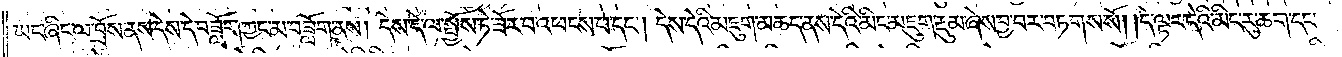ཡང་ཞིང་ལ་བྲོས་ནས་དེས་དེ་བཟློག་ཀྱང་མ་བཟློག་ནས། དེས་དེ་ལ་སྤྱོས་ཏེ་ཟོར་བ་འཕངས་པ་དང༌། དེས་དེའི་མཇུག་མཆད་ནས་དེའི་མིང་མཇུག་རྡུམ་ཞེས་བྱ་བར་བཏགས་སོ། །དེ་ལྟར་དེའི་མིང་རུ་ཆག་དང་
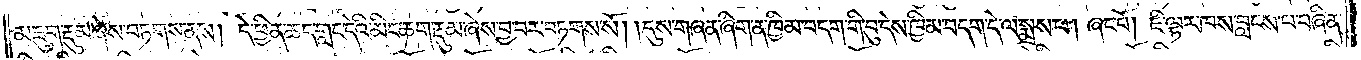མཇུག་རྡུམ་ཞེས་བཏགས་ནས། དེ་ཕྱིན་ཆད་གླང་དེའི་མིང་ཆག་རྡུམ་ཞེས་བྱ་བར་བཏགས་སོ། །དུས་གཞན་ཞིག་ན་ཁྱིམ་བདག་གི་བུ་དེས་ཁྱིམ་བདག་དེ་ལ་སྨྲས་པ། ཞང་པོ། ཇི་ལྟར་ཁས་བླངས་པ་བཞིན་
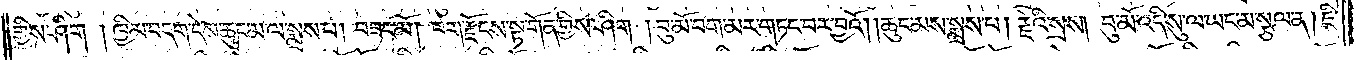གྱིས་ཤིག །ཁྱིམ་བདག་དེས་ཆུང་མ་ལ་སྨྲས་པ། བཟང་མོ། བག་རྫོངས་སྟ་གོན་གྱིས་ཤིག །བུ་མོ་བག་མར་གཏང་བར་བྱའོ། །ཆུང་མས་སྨྲས་པ། རྗེའི་སྲས། བུ་མོ་འདི་སུ་ལ་ཡང་མ་སྩལ་ན། ཇི་
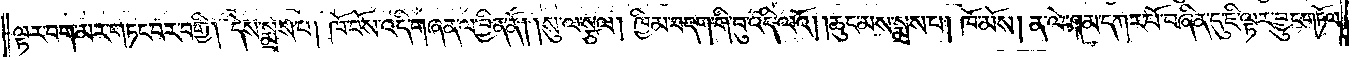ལྟར་བག་མར་གཏང་བར་བགྱི། དེས་སྨྲས་པ། ཁོ་བོས་འདི་གཞན་ལ་བྱིན་ནོ། །སུ་ལ་སྩལ། ཁྱིམ་བདག་གི་བུ་འདི་ལའོ། །ཆུང་མས་སྨྲས་པ། ཁོ་མོས། ན་ལེ་ཤམ་དཀར་པོ་བཞིན་དུ་ཇི་ལྟར་བྱུང་གཏོལ་
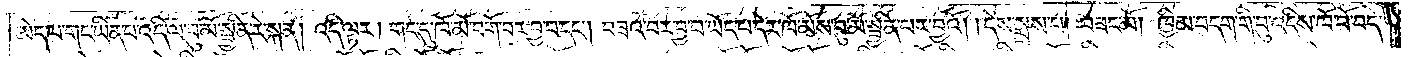མེད་པ་གང་ཡིན་པ་འདི་ལ་བུ་མོ་སྦྱིན་རེ་སྐན། འདི་ལྟར། གང་དུ་ཁོ་མོ་བགོ་བར་བྱ་བ་དང༌། བཟའ་བར་བྱ་བ་ཡོད་པ་དེར་ཁོ་མོས་བུ་མོ་སྦྱིན་པར་བྱའོ། །དེས་སྨྲས་པ། བཟང་མོ། ཁྱིམ་བདག་གི་བུ་འདིས་ཁོ་བོ་བདེ་
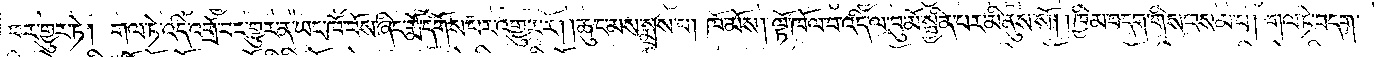བར་གྱུར་ཏེ། གལ་ཏེ་འདི་འགྲོ་བར་གྱུར་ན་ཡང་ཁོ་བོས་ཞིང་རྨོ་དགོས་པར་འགྱུར་རོ། །ཆུང་མས་སྨྲས་པ། ཁོ་མོས། ལྟོ་ཁོལ་བ་འདི་ལ་བུ་མོ་སྦྱིན་པར་མི་ནུས་སོ། །ཁྱིམ་བདག་གིས་བསམ་པ། གལ་ཏེ་བདག་
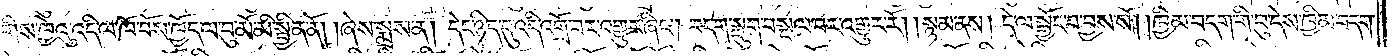གིས་ཁྱེའུ་འདི་ལ་ཁོ་བོས་ཁྱོད་ལ་བུ་མོ་མི་སྦྱིན་ནོ། །ཞེས་སྨྲས་ན། དེང་ཉིད་དུ་འདི་འགྲོ་བར་འགྱུར་ཞིང༌། བདག་སྡུག་བསྔལ་བར་འགྱུར་རོ། །སྙམ་ནས། དེ་ལ་སྒྱོང་བ་བྱས་སོ། །ཁྱིམ་བདག་གི་བུ་དེས་ཁྱིམ་བདག་
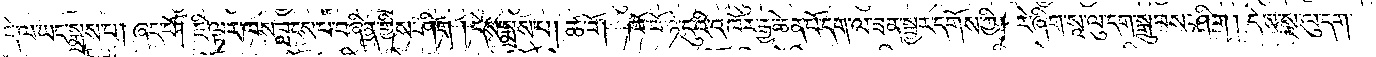དེ་ལ་ཡང་སྨྲས་པ། ཞང་པོ། ཇི་ལྟར་ཁས་བླངས་པ་བཞིན་གྱིས་ཤིག །དེས་སྨྲས་པ། ཚ་བོ། ཁོ་བོ་ཉེ་དུའི་འཁོར་རྒྱ་ཆེན་པོ་དག་ལ་ཟན་སྦྱར་དགོས་ཀྱི། རེ་ཞིག་སཱ་ལུ་དག་སྒྲུབས་ཤིག། དེས་སཱ་ལུ་དག་
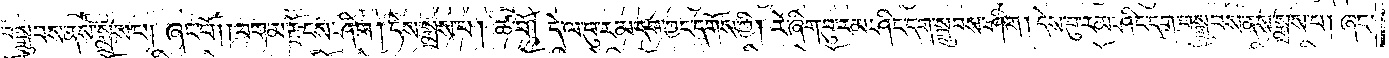བསྒྲུབས་ནས་སྨྲས་པ། ཞང་པོ། །བག་མ་རྫོངས་ཤིག། དེས་སྨྲས་པ། ཚ་བོ། དེ་ལ་བུ་རམ་དག་ཀྱང་དགོས་ཀྱི། རེ་ཞིག་བུ་རམ་ཤིང་དག་སྒྲུབས་ཤིག། དེས་བུ་རམ་ཤིང་དག་བསྒྲུབས་ནས་སྨྲས་པ། ཞང་
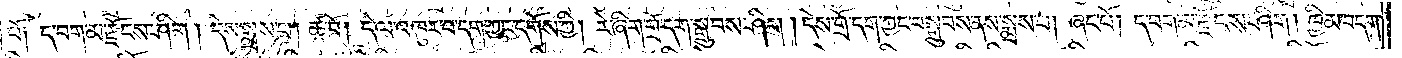པོ༑ ད་བག་མ་རྫོངས་ཤིག། དེས་སྨྲས་པ། ཚ་བོ། དེ་ལ་འཁུར་བ་དག་ཀྱང་དགོས་ཀྱི། རེ་ཞིག་གྲོ་དག་སྒྲུབས་ཤིག། དེས་གྲོ་དག་ཀྱང་བསྒྲུབས་ནས་སྨྲས་པ། ཞང་པོ། ད་བག་མ་རྫོངས་ཤིག །ཁྱིམ་བདག་
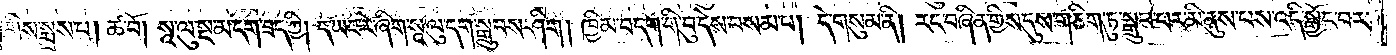གིས་སྨྲས་པ། ཚ་བོ། སཱ་ལུ་སྔ་མ་དག་ཟད་ཀྱི། ད་ཡང་རེ་ཞིག་སཱ་ལུ་དག་སྒྲུབས་ཤིག །ཁྱིམ་བདག་གི་བུ་དེས་བསམ་པ། དེ་གསུམ་ནི། རང་བཞིན་གྱིས་དུས་གཅིག་ཏུ་སྒྲུབ་པར་མི་ནུས་པས་འདི་སྒྱོང་བར་
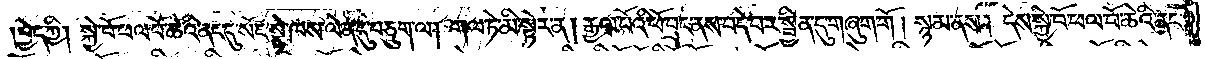བྱེད་ཀྱི། སྐྱེ་བོ་ཕལ་པོ་ཆེའི་ནང་དུ་སོང་སྟེ་ཁས་ལེན་དུ་བཅུག་ལ། གལ་ཏེ་མི་སྟེར་ན། རྒྱལ་པོའི་ཕོ་བྲང་ནས་བདེ་བར་སྦྱིན་དུ་གཞུག་གོ། སྙམ་ནས། དེས་སྐྱེ་བོ་ཕལ་པོ་ཆེའི་ནང་
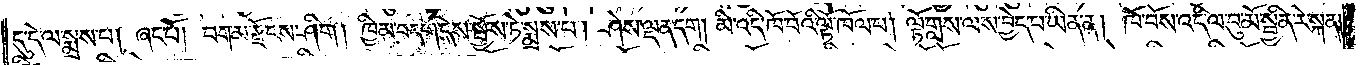དུ་དེ་ལ་སྨྲས་པ། ཞང་པོ། བག་མ་རྫོངས་ཤིག། ཁྱིམ་བདག་དེས་སྤྱོས་ཏེ་སྨྲས་པ། ཤེས་ལྡན་དག། མི་འདི་ཁོ་བོའི་ལྟོ་ཁོལ་པ། ལྟོ་གླས་ལས་བྱེད་པ་ཡིན་ན། ཁོ་བོས་འདི་ལ་བུ་མོ་སྦྱིན་རེ་སྐན།
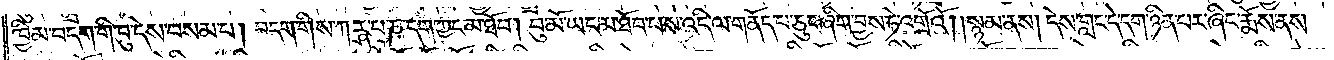ཁྱིམ་བདག་གི་བུ་དེས་བསམ་པ། བདག་གིས་ཀརྴ་པ་ཎ་དག་ཀྱང་མ་ཐོབ། བུ་མོ་ཡང་མ་ཐོབ་པས་འདི་ལ་གནོད་པ་ཅུང་ཞིག་བྱས་ཏེ་འགྲོའོ། །སྙམ་ནས། དེས་གླང་དེ་དག་ཉིན་པར་ཞིང་རྨོས་ནས་
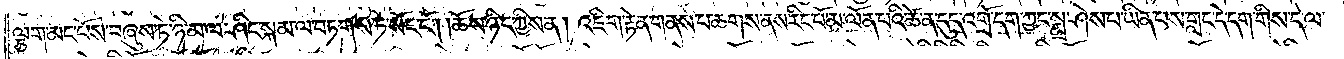ལྕག་མང་པོས་བཞུས་ཏེ་ཉི་མ་ལ་ཤིང་སྐམ་ལ་བཏགས་ཏེ་སོང་ངོ༌། །ཆོས་ཉིད་ཀྱིས་ན། འཇིག་རྟེན་གནས་པ་ཆགས་ནས་རིང་པོ་མ་ལོན་པའི་ཚེ་ན་དུད་འགྲོ་དག་ཀྱང་སྨྲ་ཤེས་པ་ཡིན་པས་གླང་དེ་དག་གིས་དེ་ལ་
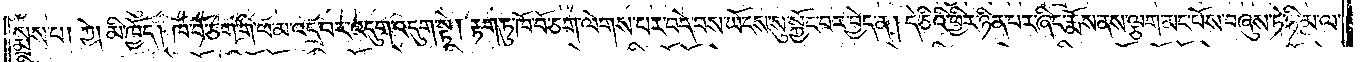སྨྲས་པ། ཀྱེ། མི་ཁྱོད། ཁོ་བོ་ཅག་གི་ཕ་མ་འདྲ་བར་འདུག་འདུག་སྟེ། རྟག་ཏུ་ཁོ་བོ་ཅག་ལེགས་པར་བདེ་བས་ཡོངས་སུ་སྐྱོང་བར་བྱེད་ན། དེ་ཅིའི་ཕྱིར་ཉིན་པར་ཞིང་རྨོས་ནས་ལྕག་མང་པོས་བཞུས་ཏེ་ཉི་མ་ལ་
